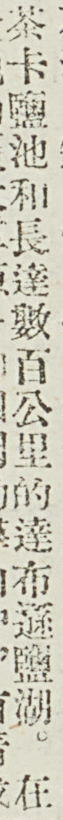茶卡鹽池和長大數百公里的達布遜鹽湖。在
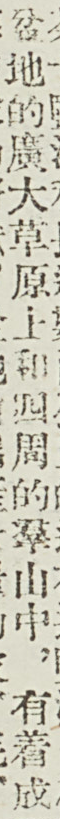盆地的廣大草原上和四周的羣山中，有着成
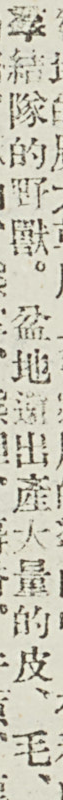羣結隊的野獸。盆地還出產大量的皮、毛、
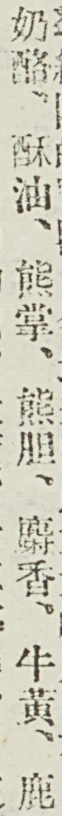奶酪、酥油、熊掌、熊胆、麝香、牛黃、鹿
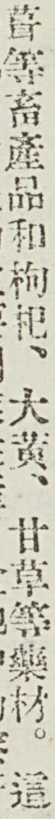葺等畜產品和枸杞、大黃、甘草等藥材。這
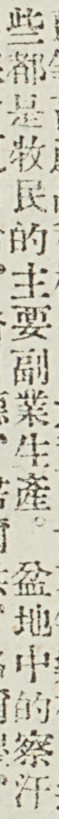些都是牧民的主要副業生產。盆地中的察汗
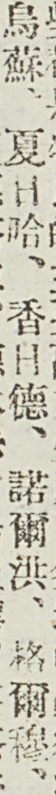烏蘇、夏日哈、香日德、諾爾洪、格爾穆、
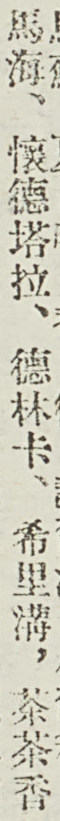馬海、懷德塔拉、德林卡、希里溝，茶茶香
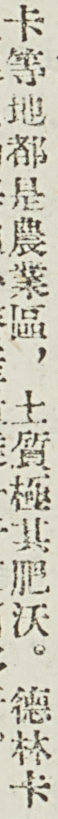卡等地都是農業區，土質極其肥沃。德林卡
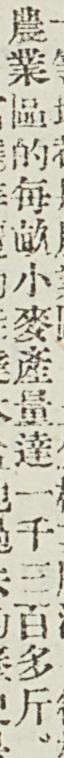農業區的每畝小麥產量達一千三百多斤。
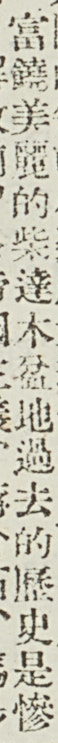富饒美麗的柴達木盆地過去的歷史是慘
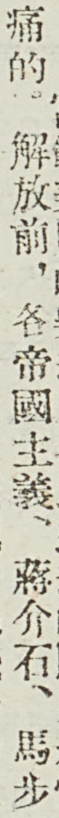痛的。解放前，各帝國主義、蔣介石、馬步
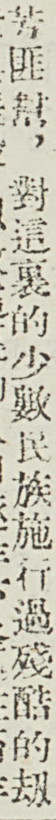芳匪幫，對這裏的少數民族實行過殘酷的刼
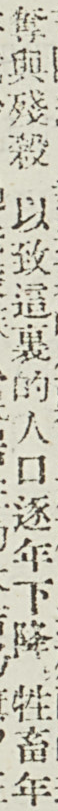奪與殘殺，以致這裏的人口逐年下降，牲畜年
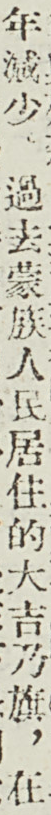年減少，過去蒙族人民居住的大吉乃旗，在
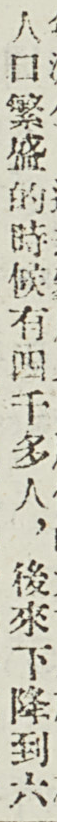人口繁盛的時候有四千多人，後來下降到六
